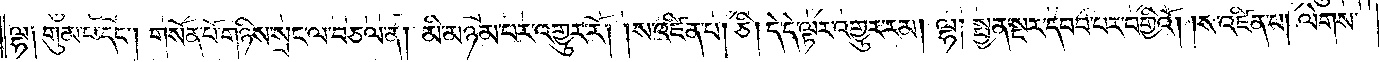ལྷ། གུམ་པ་དང༌། གསོན་པོ་གཉིས་སྲང་ལ་བཅལ་ན། མི་མཉམ་པར་འགྱུར་རོ། །ས་འཛིན་པ། ཅི། དེ་དེ་ལྟར་འགྱུར་རམ། ལྷ། སྤྱན་སྔར་དབབ་པར་བགྱིའོ། །ས་འཛིན་པ། ལེགས་
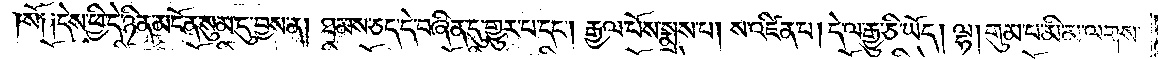སོ༑ ༑དེས་ཕྱི་དེ་ཉིན་མངོན་སུམ་དུ་བྱས་ན། ཐམས་ཅད་དེ་བཞིན་དུ་གྱུར་པ་དང༌། རྒྱལ་པོས་སྨྲས་པ། ས་འཛིན་པ། དེ་ལ་རྒྱུ་ཅི་ཡོད། ལྷ། གུམ་པ་མི་མ་ལགས་
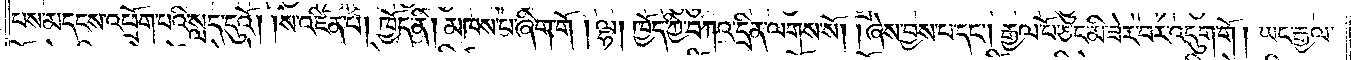པས་མདངས་འཕྲོག་པའི་སླད་དུའོ། །ས་འཛིན་པ། ཁྱོད་ནི། མཁས་པ་ཞིག་གོ །ལྷ། ཁྱོད་ཀྱི་བཀའ་དྲིན་ལགས་སོ། །ཞེས་བྱས་པ་དང༌། རྒྱལ་པོ་ཅང་མི་ཟེར་བར་འདུག་གོ། ཡང་རྒྱལ་
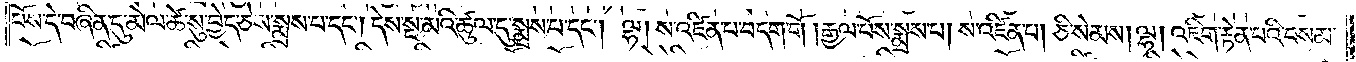པོས་དེ་བཞིན་དུ་མེལ་ཚེ་སུ་བྱེད་ཅེས་སྨྲས་པ་དང༌། དེས་སྔ་མའི་ཚུལ་དུ་སྨྲས་པ་དང༌། ལྷ། ས་འཛིན་པ་བདག་གོ །རྒྱལ་པོས་སྨྲས་པ། ས་འཛིན་པ། ཅི་སེམས། ལྷ། འཇིག་རྟེན་པའི་བསམ་
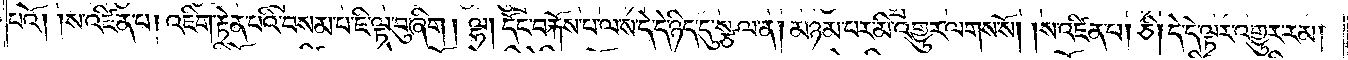པའོ། །ས་འཛིན་པ། འཇིག་རྟེན་པའི་བསམ་པ་ཇི་ལྟ་བུ་ཞིག །ལྷ། དོང་བརྐོས་པ་ལས་དེ་དེ་ཉིད་དུ་སྩལ་ན། མཉམ་པར་མི་འགྱུར་ལགས་སོ། །ས་འཛིན་པ། ཅི། དེ་དེ་ལྟར་འགྱུར་རམ།
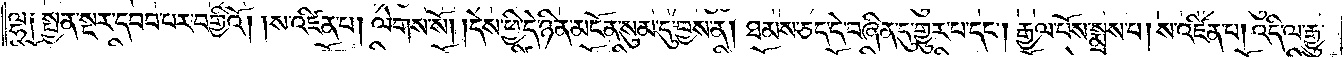ལྷ༑ སྤྱན་སྔར་དབབ་པར་བགྱིའོ། །ས་འཛིན་པ། ལེགས་སོ། །དེས་ཕྱི་དེ་ཉིན་མངོན་སུམ་དུ་བྱས་ན། ཐམས་ཅད་དེ་བཞིན་དུ་གྱུར་པ་དང༌། རྒྱལ་པོས་སྨྲས་པ། ས་འཛིན་པ། འདི་ལ་རྒྱུ་
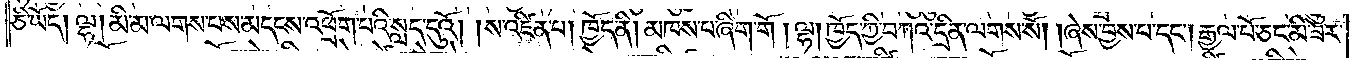ཅི་ཡོད། ལྷ། མི་མ་ལགས་པས་མདངས་འཕྲོག་པའི་སླད་དུའོ། །ས་འཛིན་པ། ཁྱོད་ནི། མཁས་པ་ཞིག་གོ །ལྷ། ཁྱོད་ཀྱི་བཀའ་དྲིན་ལགས་སོ། །ཞེས་བྱས་པ་དང༌། རྒྱལ་པོ་ཅང་མི་ཟེར་
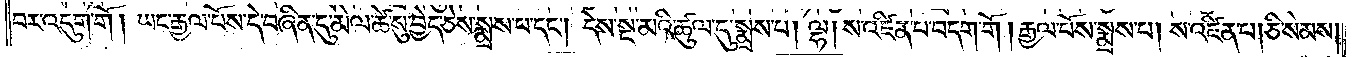བར་འདུག་གོ །ཡང་རྒྱལ་པོས་དེ་བཞིན་དུ་མེལ་ཚེ་སུ་བྱེད་ཅེས་སྨྲས་པ་དང༌། དེས་སྔ་མའི་ཚུལ་དུ་སྨྲས་པ། ལྷ། ས་འཛིན་པ་བདག་གོ །རྒྱལ་པོས་སྨྲས་པ། ས་འཛིན་པ། ཅི་སེམས།
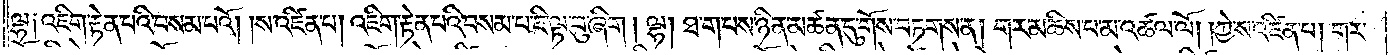ལྷ༑ འཇིག་རྟེན་པའི་བསམ་པའོ། །ས་འཛིན་པ། འཇིག་རྟེན་པའི་བསམ་པ་ཇི་ལྟ་བུ་ཞིག །ལྷ། ཐ་ག་པས་ཉིན་མཚན་དུ་གོས་བཏགས་ན། གར་མཆིས་པ་མ་འཚལ་ལོ། །ཀྱེ་ས་འཛིན་པ། གར་
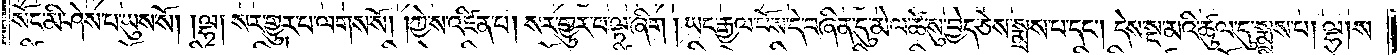སོང་མི་ཤེས་པ་ཡུས་སོ། །ལྷ། སར་གྱུར་པ་ལགས་སོ། །ཀྱེ་ས་འཛིན་པ། སར་གྱུར་པ་ལྟ་ཞིག །ཡང་རྒྱལ་པོས་དེ་བཞིན་དུ་མེལ་ཚེ་སུ་བྱེད་ཅེས་སྨྲས་པ་དང༌། དེས་སྔ་མའི་ཚུལ་དུ་སྨྲས་པ། ལྷ། ས་
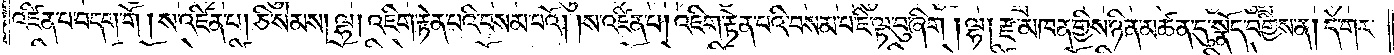འཛིན་པ་བདག་གོ །ས་འཛིན་པ། ཅི་སེམས། ལྷ། འཇིག་རྟེན་པའི་བསམ་པའོ། །ས་འཛིན་པ། འཇིག་རྟེན་པའི་བསམ་པ་ཇི་ལྟ་བུ་ཞིག །ལྷ། རྫ་མཁན་གྱིས་ཉིན་མཚན་དུ་སྣོད་བགྱིས་ན། དེ་གར་
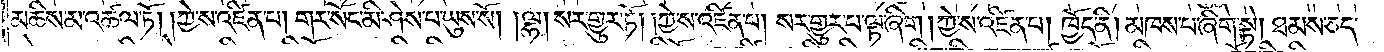མཆིས་མ་འཚལ་ཏོ། །ཀྱེ་ས་འཛིན་པ། གར་སོང་མི་ཤེས་པ་ཡུས་སོ། །ལྷ། སར་གྱུར་ཏོ། །ཀྱེ་ས་འཛིན་པ། སར་གྱུར་པ་ལྟ་ཞིག །ཀྱེ་ས་འཛིན་པ། ཁྱོད་ནི། མཁས་པ་ཞིག་སྟེ། ཐམས་ཅད་
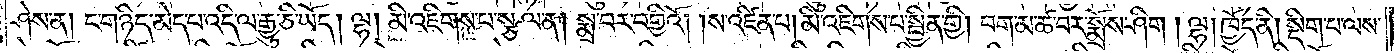ཤེས་ན། ང་གཉིད་མེད་པ་འདི་ལ་རྒྱུ་ཅི་ཡོད། ལྷ། མི་འཇིགས་པ་སྩལ་ན། སྨྲ་བར་བགྱིའོ། །ས་འཛིན་པ། མི་འཇིགས་པ་སྦྱིན་གྱི། བག་མ་ཚ་བར་སྨྲོས་ཤིག །ལྷ། ཁྱོད་ནི། སྡིག་པ་ལས་
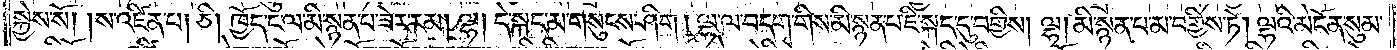སྐྱེས་སོ། །ས་འཛིན་པ། ཅི། ཁྱོད་ང་ལ་མི་སྙན་པ་ཟེར་རམ། ལྷ། དེ་སྐད་མ་གསུངས་ཤིག །ལྷ་ལ་བདག་གིས་མི་སྙན་པ་ཇི་སྐད་དུ་བགྱིས། ལྷ། མི་སྙན་པ་མ་བགྱིས་ཏེ། ལྷའི་མངོན་སུམ་
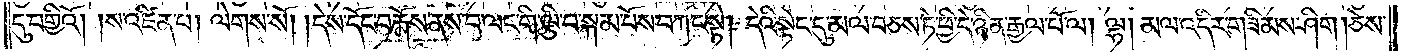དུ་བགྱིའོ། །ས་འཛིན་པ། ལེགས་སོ། །དེས་དོང་བརྐོས་ནས་བ་ལང་གི་ལྕི་བསྐམ་པོས་བཀང་སྟེ། དེའི་སྟེང་དུ་མལ་བཅས་ཏེ་ཕྱི་དེ་ཉིན་རྒྱལ་པོ་ལ། ལྷ། མལ་འདིར་གཟིམས་ཤིག །ཅེས་
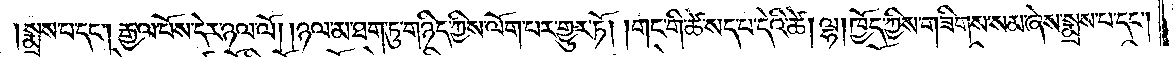སྨྲས་པ་དང༌། རྒྱལ་པོས་དེར་ཉལ་ལོ། །ཉལ་མ་ཐག་ཏུ་གཉིད་ཀྱིས་ལོག་པར་གྱུར་ཏོ། །གང་གི་ཚེ་སད་པ་དེའི་ཚེ། ལྷ། ཁྱོད་ཀྱིས་གཟིགས་སམ་ཞེས་སྨྲས་པ་དང༌།
